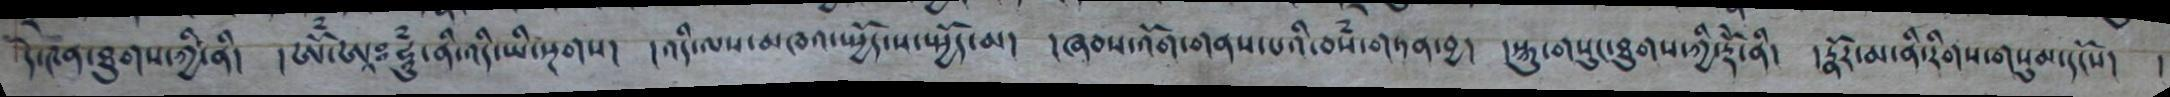དེ་༤ན་ཐུགས་ཀྱི་ནི། །ཨོཾ་ཨཱཿ ཧཱུཾ་ནི་འདི་ཡི་སྔགས། །འདི་ལས་མཁའ་སྤྱོད་ས་སྤྱོད་མ། །ཞབས་འོག་གནས་པའི་བསཾ་གཏན་བྱ། །སྐུ་གསུང་ཐུག་ཀྱི་རྡོེ་ནི། །རྣོར་མ་ནི་རིགས་གསུམ་དངོས། །
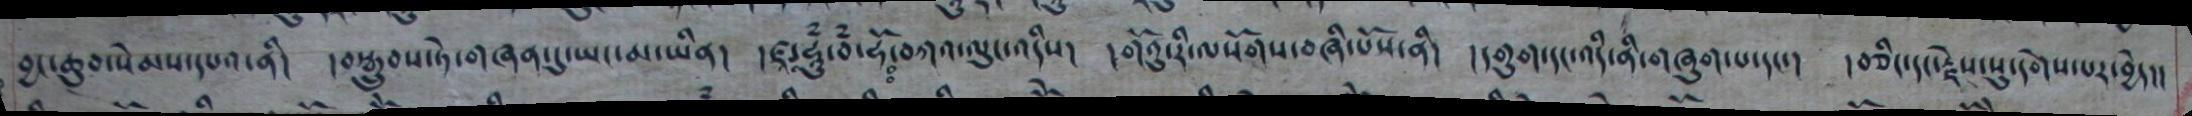བྱང་ཆུབ་སེམས་དཔའ་ནི། །བསྒྲུབས་ཏེ་གཞན་དུ་ཡང་མ་ཡིན། །ཛཱ་ཧཱུཾ་བཾ་ཧོ་བཀའ་ལུང་འདིས། །གོའུ་རི་ལ་སོགས་བཞི་པོས་ནི། །དགུག་དང་འདི་ནི་གཞུག་པ་དང་། །བཅིང་དང་རྗེས་སུ་དགེས་པར་བྱེད།།
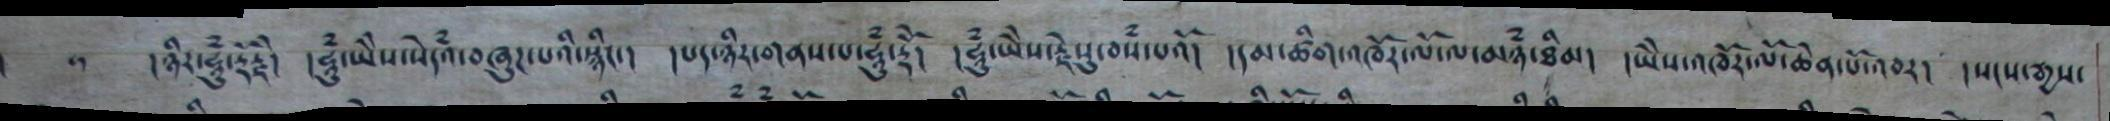།ཉིར་ཧཱུཾ་རྡོ་རྗེ། །ཧཱུཾ་ཡཻས་སེཾདའ་བཞུཌ་པའི་སྙིང་། །པད་ཉིར་གནས་པ་ཧཱུཾ་རྡོེ། །ཧཱུཾ་ཡེེས་རྗེསུ་བསཾ་པའོ། །དམ་ཚིག་འཁོར་ལོ་ལ་མཉཾ་ཐིམ། །ཡེེས་འཁོར་ལོ་ཆེན་པོ་འབར། །སངས་རྒྱས་
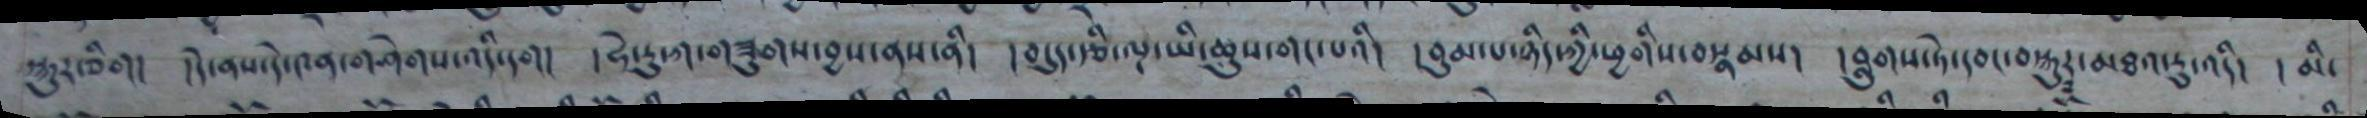སྐུར་ཅིག། །དེ་ནས་དེ་༤ན་གཤེགས་འདི་དག། །ཧེ་རུ་ཀ་གཟུགས་བྱས་ནས་ནི། །བདུད་རྩི་ལྔ་ཡི་ཆུས་གང་པའི། །བུམ་པ་ཉིད་ཀྱི་ཕྱགིས་བསྣམས། །བླུགས་ཏེ་དབང་བསྐུར་མཐའ་རུ་འདི། །མི་
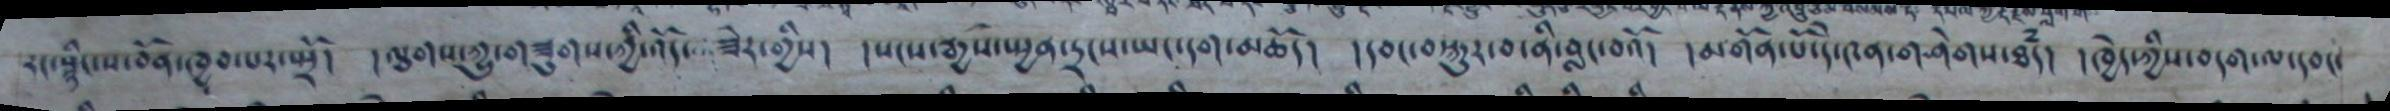རང་སྙིང་ས་བོན་ཁྱབ་པར་སྤྲོ། །ལྕགས་ཀྱུ་གཟུགས་ཀྱི་འདོ་ཟེར་གྱིས། །སངས་རྒྱས་སྤྱན་དྲངས་ཡང་དག་མཆོད། །དབང་བསྐུར་བ་ནི་བླང་བའོ། །མགོན་པོ་དེ་༤ན་གཤེགས་ཐཾད། །ཁྱེད་ཀྱིས་བདག་ལ་དབང་
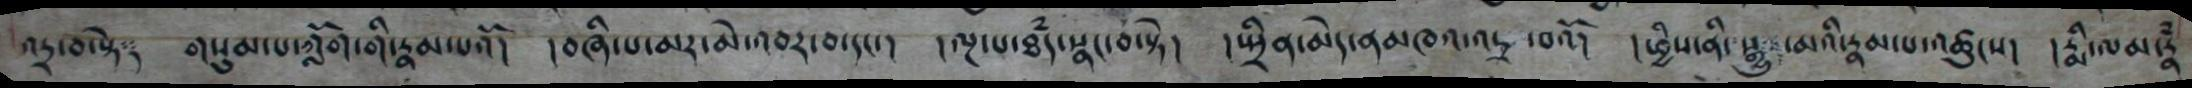འདྲ་བ་སྟེ གསུམ་པ་ཀློག་གི་རྣམ་པའོ། །བཞི་པ་མར་མེ་འབར་བ་དང་། །ལྔ་པ་ཐཾད་སྣང་བ་སྟེ། །སྤྲིན་མེད་ནམཁའ་འདྲ་བའོ། །ཕྱིས་ནི་སྒྱུ་མའི་རྣམ་པ་འཚུངས། །རྨི་ལམ་རྣཾ
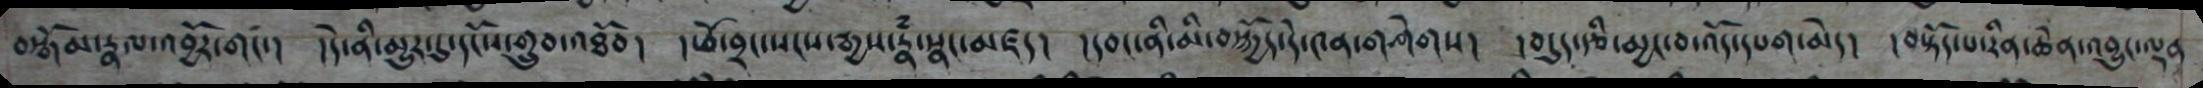བསྒོམ་རྣལ་འབྱོར་གང་། །དེ་ནི་མྱུར་དུ་དངོས་གྲུབ་འཐོབ། །ཕོ་བྲང་སངས་རྒྱས་རྣཾ་སྣང་མཛད། །དབང་ནི་མི་བསྐྱོད་དེ་༤ན་གཤེགས། །བདུད་རྩི་མྱང་བ་འོད་དཔག་མེད། །བསྟོད་པ་རིན་ཆེན་འབྱུང་ལྡན
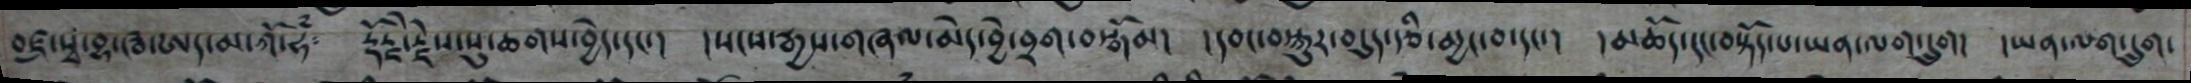བཛྲ་སྭ་བྷ་ཝ་ཨད་མ་ཀོ་ཧཾ༴ རྡོརྗེ་རྗེས་སུ་ཆགས་བྱེད་དང་། །སངས་རྒྱས་གཞལ་མེད་བྱེ་བྲག་བསྒོམ། །དབང་བསྐུར་བདུད་རྩི་མྱང་བ་དང་། །མཆོད་དང་བསྟོད་པ་ཡན་ལག་དྲུག། །ཡན་ལག་དྲུག་
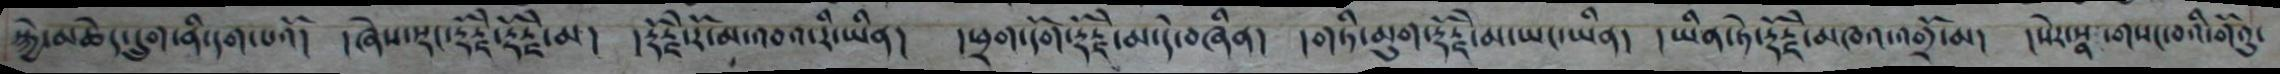སྐྱེ་མཆེད་དྲུག་ནི་དག་པའོ།  །ཞེས་སྡང་རྡོརྗེ་རྡོརྗེ་མ།  །རྡོརྗེརོ་མ་འབའ་རི་ཡིན།  །ཕྲག་དོག་རྡོརྗེ་མ་དེ་བཞིན།  །གཏི་མུག་རྡོརྗེ་མ་ཡང་ཡིན།  །ཡིན་ཏེ་རྡོརྗེ་མཁའ་འགྲོ་མ།  །སེར་སྣ་གསང་བའི་གོའུ་
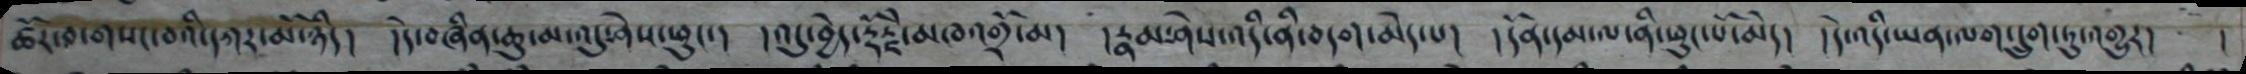ཚོར་བདགསང་བའི་དཀར་མོ་ཉིད།  །དེ་བཞིན་ཆུ་མ་འདུ་ཤེས་ཕུང་།  །འདུ་བྱེད་རྡོརྗེ་མཁའ་འགྲོ་མ།   །རྣམ་ཤེས་འདི་ནི་བདག་མེད་པ།  །དོན་དམ་ལ་ནི་ཕུང་པོ་མད།  །དེ་འདི་ཡན་ལག་དྲུག་ཏུ་འགྱུར།     །
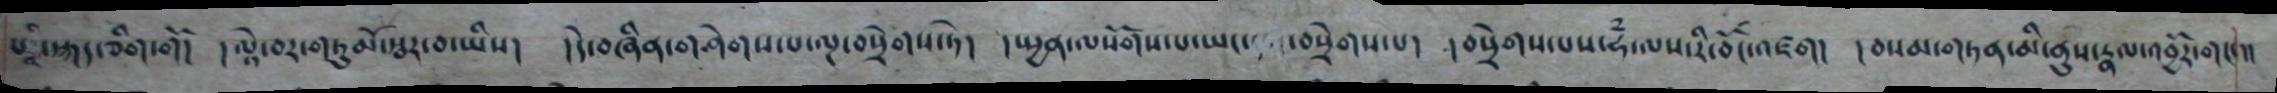པའི་སྐད་ཅིག་གོ། ལྟེ་བར་གཏུམོ་སྦར་བ་ཡིས།  །དེ་བཞིན་གཤེགས་པ་ལྔ་བསྲེགས་ཏེ།  །སྤྱན་ལ་སོགས་པ་ཡང་བསྲེགས་པ།  །བསྲེགས་པས་ཧཾ་ལས་རི་བོང་འཛག།  །བསམ་གཏན་མི་ནུས་རྣལ་འབྱོར་གང་།།
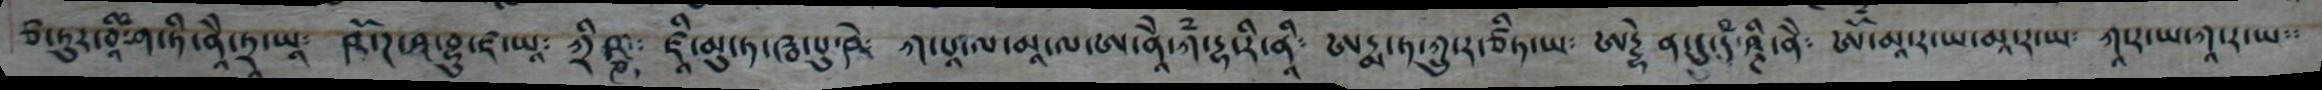ཙ་ཏུར་བཱི་ཤ་ཏི་ནཱི་ཏྲཱ་ཡཱ༴  ཥོ་ཌ་བྷུ་ཛ་ཡཱ༴ ཀྲི་ཥྞ༴   ཛཱི་མུ་ཏ་ཝ་པུ་ཥེ༴  ཀ་པ་ལ་མཱ་ལ་ཨ་ནཱེེ་ཀཾ་དྷ་རི་ནི༴   ཨདྨ་ཏ་ཀྲུ་ར་ཙིཏ་ཡ༴ ཀཱ་ར་ཡ་ཀཱ་ར་ཡ༴༴
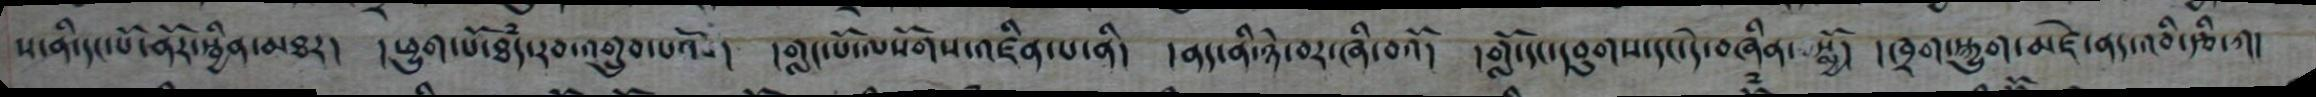ས་ནི་དང་པོ་ནོར་སྦྱིན་མཐར། །ཕྱུག་པོ་ཐཾད་རབ་འགྲུབ་པའོ། །གླང་པོ་ལསོགས་འཛིན་པ་ནི། །ནད་ནི་ཉེ་བར་ཞི་བའོ། །གློ་དང་དབུགས་དང་དེ་བཞིན་སྨྱོ། །ཁྲག་སྐྱུག་མཛེ་ནད་འབི་རྩི་ཀ།
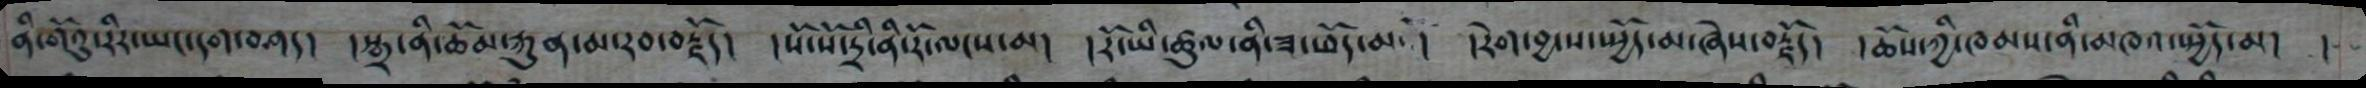ནི་གོའུ་རིར་ཡང་དག་བཤད། །སྒྲ་ནི་ཆོམ་རྐུན་མ་རབ་བརྗོད། །སོ་སོ་དྲི་ནི་རོ་ལངས་མ། །རོ་ཡི་ཚུལ་ནི་ཟ་ཕོད་མ ། །རེག་བྱ་ས་སྤྱོད་མ་ཞེས་བརྗོད། །ཆོས་ཀྱི་ཁམས་ནི་མཁའ་སྤྱོད་མ། །
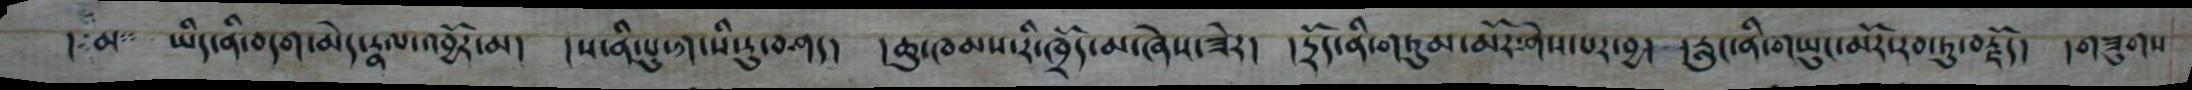། མ༴༴ ཡིད་ནི་བདག་མེད་རྣལ་འབྱོར་མ། །ས་ནི་པུ་ཀ་སི་རུ་བཤད། །ཆུ་ཁམས་རི་ཁྲོད་མ་ཞེས་ཟེར། །དྲོད་ནི་གཏུམ་མོར་ཤེས་པར་བྱ། །རླུང་ནི་གཡུང་མོར་རབ་ཏུ་བརྗོད། །གཟུགས
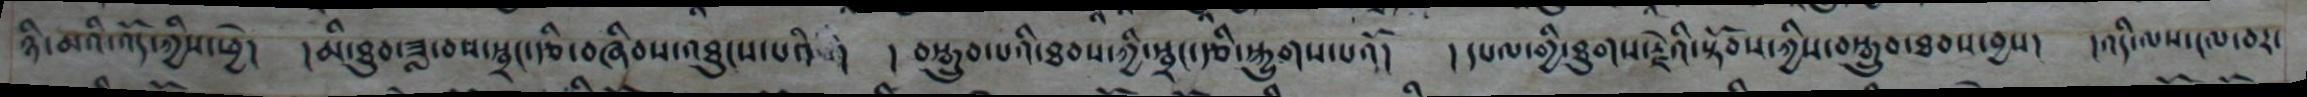ཉི་མའི་འོད་ཀྱིས་ཕྱེ། །མི་ཐུབ་ཟླ་བས་སྦྲང་རྩི་བཞིབས་འཐུངས་པའི ། །བསྒྲུབ་པའི་ཐབས་ཀྱི་སྦྲང་རྩི་སྐྱུགས་པའོ། །དཔལ་གྱི་ཐུགས་རྗེའི་སྟོབས་ཀྱིས་བསྒྲུབ་ཐབས་བྱས། །འདི་ལས་ངལ་བར་
